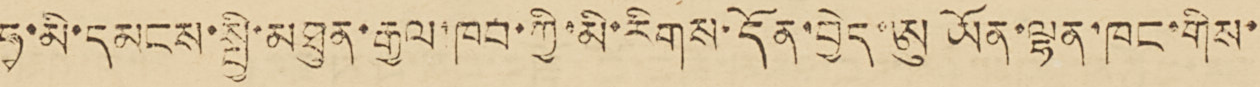ཧྭ་མི་དམངས་སྤྱི་མཐུན་རྒྱལ་ཁབ་ཀྱི་མི་རིགས་དོན་བྱེད་ཨུ ཡོན་ལྷན་ཁང་གིས་
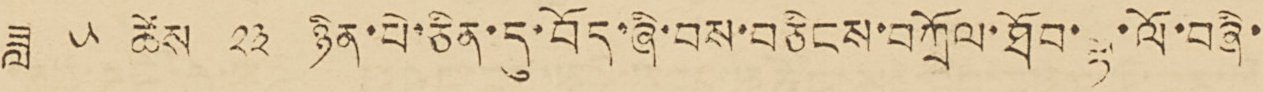ཟླ ༥ ཚེས ༢༣ ཉིན་པེ་ཅིན་དུ་བོད་ཞི་བས་བཅིངས་བཀྲོལ་ཐོབ་ལྟ་ལོ་བཞི་
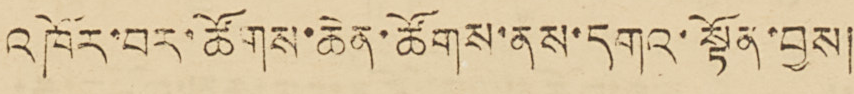འཁོར་བར་ཚོགས་ཆེན་ཚོགས་ནས་དགའ་སྟོན་བྱས།
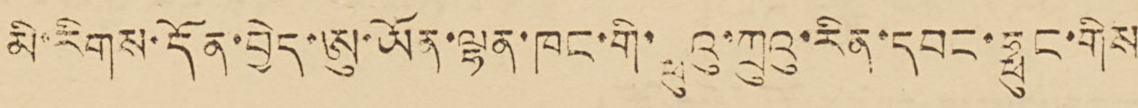མི་རིགས་དོན་བྱེད་ཨུ་ཡོན་ལྷན་ཁང་གི་ཧྥུའུ་ཀྲུའུ་རིན་དབང་ཧྥུང་གིས
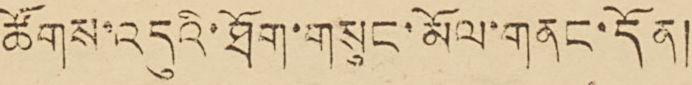ཚོགས་འདུའི་ཐོག་གསུང་མོལ་གནང་དོན།
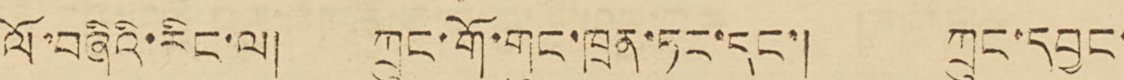ལོ་བཞིའི་རིང་ལ། ཀྲུང་གོ་གུང་ཁྲན་ཏང་དང་། ཀྲུང་དབྱང་
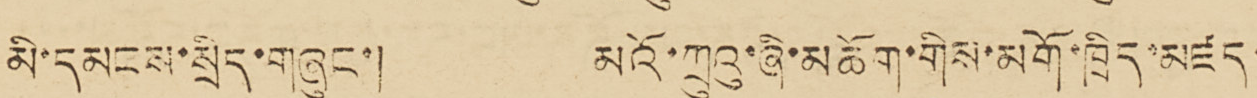མི་དམངས་སྲིད་གཞུང་། མའོ་ཀྲུའུ་ཞི་མཆོག་གིས་མགོ་ཁྲིད་མཛད་
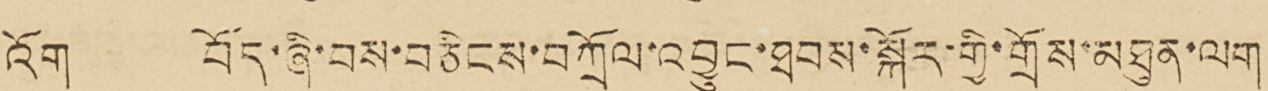འོག བོད་ཞི་བས་བཅིངས་བཀྲོལ་འབྱུང་ཐབས་སྐོར་གྱི་གྲོས་མཐུན་ལག
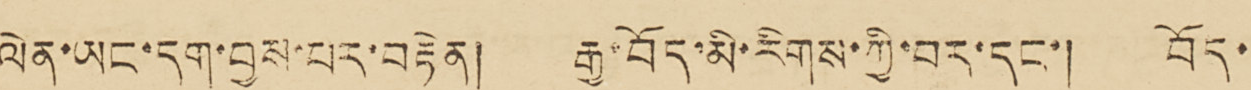ལེན་ཡང་དག་བྱས་པར་བརྟེན། རྒྱ་བོད་མི་རིགས་ཀྱི་བར་དང་། བོད་
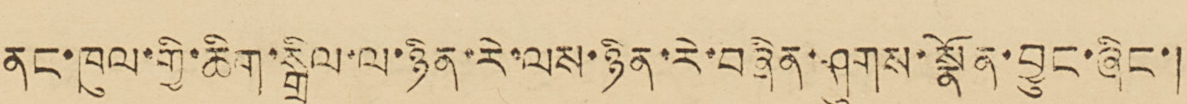ནང་ཁུལ་གྱི་ཆིག་སྒྲིལ་ལ་ཉིན་རེ་ལས་ཉིན་རེ་བཞིན་ཤུགས་བྱུང་ཞིང་།
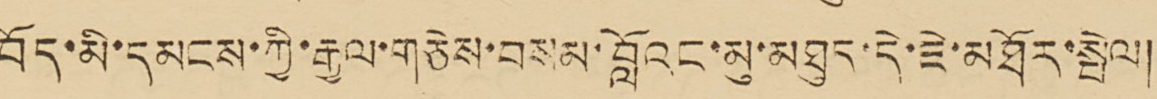བོད་མི་དམངས་ཀྱི་རྒྱལ་གཅེས་བསམ་བློའང་མུ་མཐུད་དེ་ཇེ་མཐོར་སྤེལ།
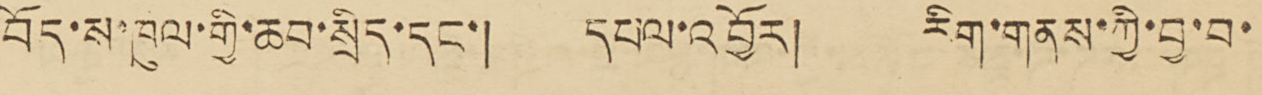བོད་ས་ཁུལ་གྱི་ཆབ་སྲིད་དང་། དཔལ་འབྱོར། རིག་གནས་ཀྱི་བྱ་བ་
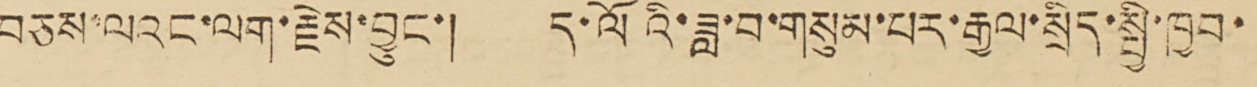བཅས་ལའང་ལག་རྗེས་བྱུང་། ད་ལོའི་ཟླ་བ་གསུམ་པར་རྒྱལ་སྲིད་སྤྱི་ཁྱབ་
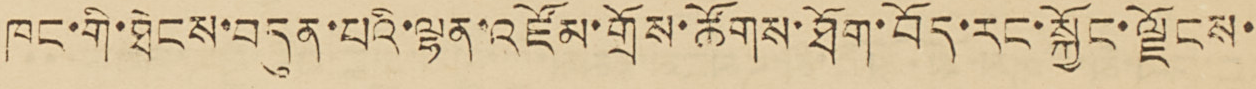ཁང་གི་ཐེངས་བདུན་པའི་ལྷན་འཛོམ་གྲོས་ཚོགས་ཐོག་བོད་རང་སྐྱོང་ལྗོངས་
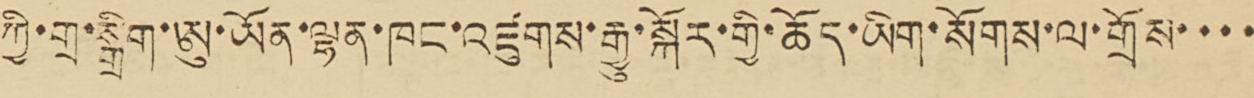ཀྱི་གྲ་སྒྲིག་ཨུ་ཡོན་ལྷན་ཁང་འཛུགས་རྒྱུ་སྐོར་གྱི་ཆོད་ཡིག་སོགས་ལ་གྲོས་་་་
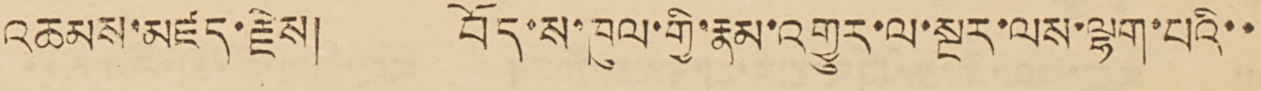འཆམས་མཛད་རྗེས། བོད་ས་ཁུལ་གྱི་རྣམ་འགྱུར་ལ་སྔར་ལས་ལྷག་པའི་་
